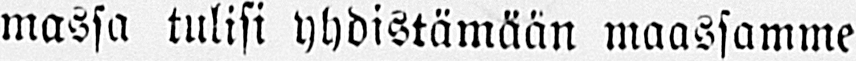massa tulisi yhdistämään maassamme
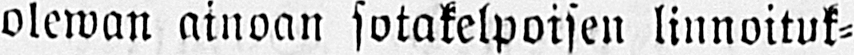olewan ainoan sotakelpoisen linnoituk-
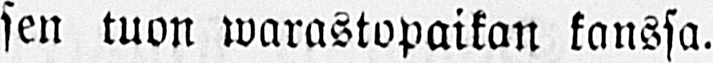sen tuon warastopaikan kanssa.
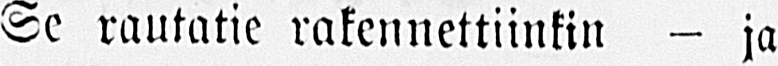Se rautatie rakennettiinkin - ja
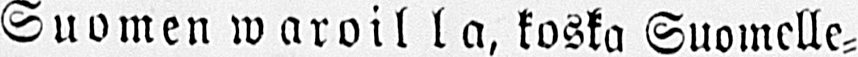Suomenwaroilla, koska Suomelle-
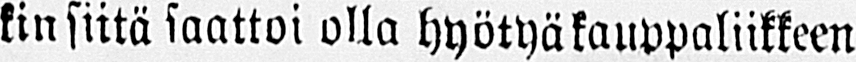kin siitä saattoi olla hyötyä kauppaliikkeen
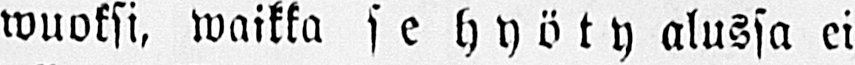wuoksi, waikka se hyöty alussa ei
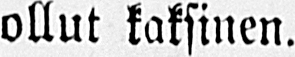ollut kaksinen.
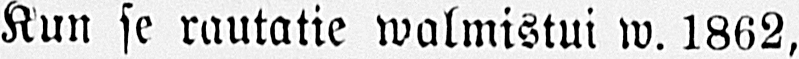Kun se rautatie walmistui w. 1862,
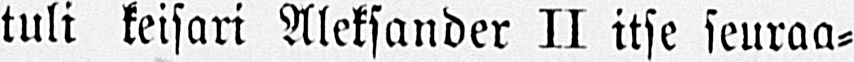tuli keisari Aleksander II itse seuraa-
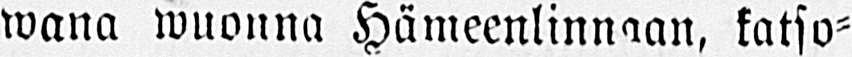wana wuonna Hämeenlinnaan, katso-
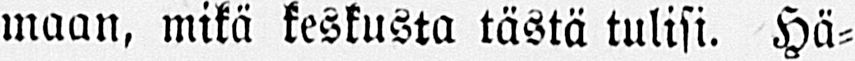maan, mikä keskusta tästä tulisi. Hä-
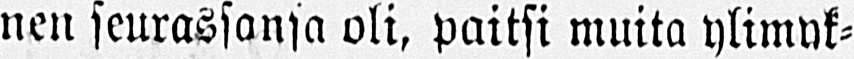nen seurassansa oli, paitsi muita ylimyk-
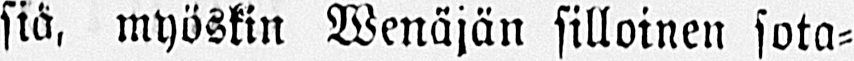siä, myöskin Wenäjän silloinen sota-
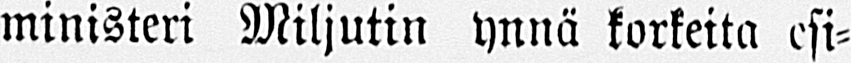ministeri Miljutin ynnä korkeita esi-
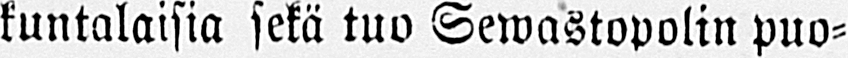kuntalaisia sekä tuo Sewastopolin puo-
